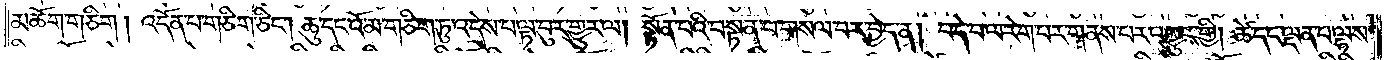མཆོག་གཅིག ། འདོན་པ་གཅིག་ཅིང༌། ཆུ་དང་འོ་མ་གཅིག་ཏུ་འདྲེས་པ་ལྟ་བུར་གྱུར་ལ། སྟོན་པའི་བསྟན་པ་གསལ་བར་བྱེད་ན། བདེ་བ་ལ་རེག་པར་གནས་པར་འགྱུར་གྱི། ཚེ་དང་ལྡན་པ་ལྷས་
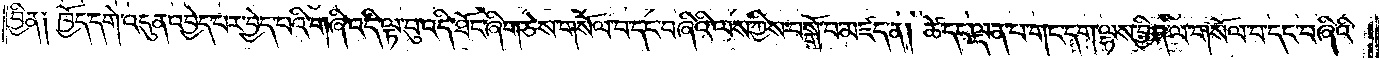བྱིན༑ ཁྱོད་དགེ་འདུན་འབྱེད་པར་བྱེད་པའི་གཞི་འདི་ལྟ་བུ་འདི་ཐོང་ཞིག་ཅེས་གསོལ་བ་དང་བཞིའི་ལས་ཀྱིས་བསྒོ་བ་མཛད་ན། ཚེ་དང་ལྡན་པ་གང་དག་ལྷས་བྱིན་ལ་གསོལ་བ་དང་བཞིའི་
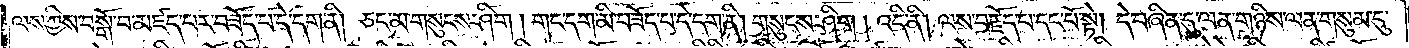ལས་ཀྱིས་བསྒོ་བ་མཛད་པར་བཟོད་པ་དེ་དག་ནི། ཅང་མ་གསུངས་ཤིག ། གང་དག་མི་བཟོད་པ་དེ་དག་ནི། གསུངས་ཤིག ། འདི་ནི། ལས་བརྗོད་པ་དང་པོ་སྟེ། དེ་བཞིན་དུ་ལན་གཉིས་ལན་གསུམ་དུ་
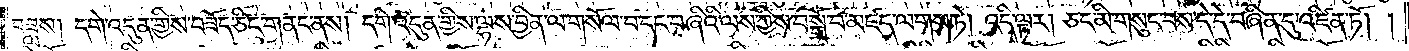བཟླས། དགེ་འདུན་གྱིས་བཟོད་ཅིང་གནང་ནས། དགེ་འདུན་གྱིས་ལྷས་བྱིན་ལ་གསོལ་བ་དང་བཞིའི་ལས་ཀྱིས་བསྒོ་བ་མཛད་ལགས་ཏེ། འདི་ལྟར། ཅང་མི་གསུང་བས་དེ་དེ་བཞིན་དུ་འཛིན་ཏོ། །
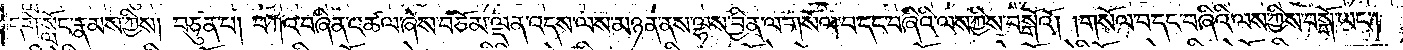དགེ་སློང་རྣམས་ཀྱིས། བཙུན་པ། བཀའ་བཞིན་འཚལ་ཞེས་བཅོམ་ལྡན་འདས་ལས་མཉན་ནས་ལྷས་བྱིན་ལ་གསོལ་བ་དང་བཞིའི་ལས་ཀྱིས་བསྒོའོ། །གསོལ་བ་དང་བཞིའི་ལས་ཀྱིས་བསྒོ་ཡང༌།
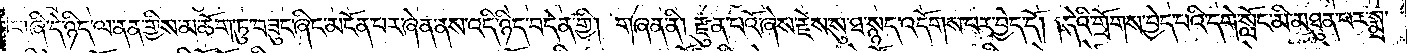གཞི་དེ་ཉིད་ལ་ནན་གྱིས་མཆོག་ཏུ་བཟུང་ཞིང་མངོན་པར་ཞེན་ནས་འདི་ཉིད་བདེན་གྱི། གཞན་ནི། རྫུན་པའོ་ཞེས་རྗེས་སུ་ཐ་སྙད་འདོགས་པར་བྱེད་དོ། །དེའི་གྲོགས་བྱེད་པའི་དགེ་སློང་མི་མཐུན་པར་སྨྲ་
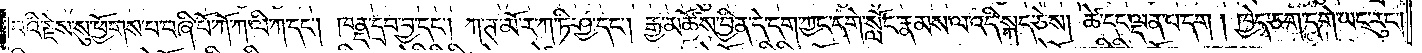བའི་རྗེས་སུ་ཕྱོགས་པ་བཞི་པོ་ཀོ་ཀ་ལི་ཀ་དང༌། ཁནྡ་དྲབ་བྱ་དང༌། ཀ་ཊ་མོ་ར་ཀ་ཏི་ཤྱ་དང༌། རྒྱ་མཚོས་བྱིན་དེ་དག་ཀྱང་དགེ་སློང་རྣམས་ལ་འདི་སྐད་ཅེས། ཚེ་དང་ལྡན་པ་དག ། ཁྱེད་ཅག་དགེ་ཡང་རུང༌།
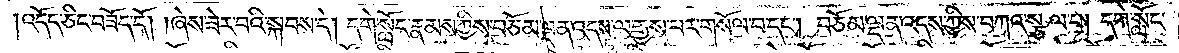འདོད་ཅིང་བཟོད་དོ། །ཞེས་ཟེར་བའི་སྐབས་དེ། དགེ་སློང་རྣམས་ཀྱིས་བཅོམ་ལྡན་འདས་ལ་རྒྱས་པར་གསོལ་བ་དང༌། བཅོམ་ལྡན་འདས་ཀྱིས་བཀའ་སྩལ་པ། དགེ་སློང་
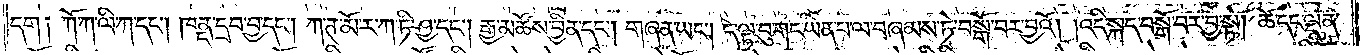དག༏ ཀོ་ཀ་ལི་ཀ་དང༌། ཁནྡ་དྲབ་བྱ་དང༌། ཀ་ཊ་མོ་ར་ཀ་ཏི་ཤྱ་དང༌། རྒྱ་མཚོས་བྱིན་དང༌། གཞན་ཡང༌། དེ་ལྟ་བུ་གང་ཡིན་པ་ལ་བཞམས་ཏེ་བསྒོ་བར་བྱའོ། །འདི་སྐད་བསྒོ་བར་བྱ་སྟེ། ཚེ་དང་ལྡན་
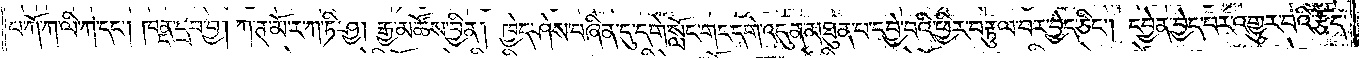པ་ཀོ་ཀ་ལི་ཀ་དང༌། ཁནྡ་དྲབ་བྱ། ཀ་ཊ་མོ་ར་ཀ་ཏི་ཤྱ། རྒྱ་མཚོས་བྱིན། ཁྱེད་ཤེས་བཞིན་དུ་དགེ་སློང་གང་དགེ་འདུན་མཐུན་པ་དབྱེ་བའི་ཕྱིར་བརྟུལ་བར་བྱེད་ཅིང༌། དབྱེན་བྱེད་པར་འགྱུར་བའི་རྩོད་
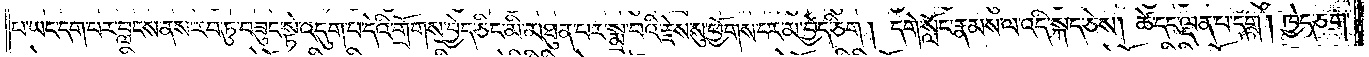པ་ཡང་དག་པར་བླངས་ནས་རབ་ཏུ་བཟུང་སྟེ་འདུག་པ་དེའི་གྲོགས་བྱེད་ཅིང་མི་མཐུན་པར་སྨྲ་བའི་རྗེས་སུ་ཕྱོགས་པར་མ་བྱེད་ཅིག། དགེ་སློང་རྣམས་ལ་འདི་སྐད་ཅེས། ཚེ་དང་ལྡན་པ་དང༌། ཁྱེད་ཅག་
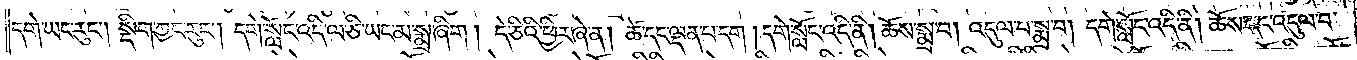དགེ་ཡང་རུང༌། སྡིག་ཀྱང་རུང༌། དགེ་སློང་འདི་ལ་ཅི་ཡང་མ་སྨྲ་ཞིག །དེ་ཅིའི་ཕྱིར་ཞེ་ན། ཚེ་དང་ལྡན་པ་དག །དགེ་སློང་འདི་ནི། ཆོས་སྨྲ་བ། འདུལ་བ་སྨྲ་བ། དགེ་སློང་འདི་ནི། ཆོས་དང་འདུལ་བ་
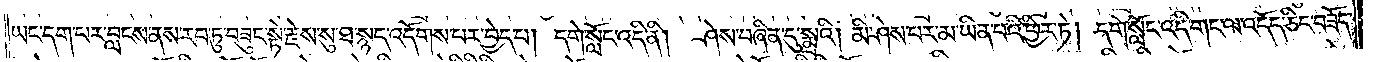ཡང་དག་པར་བླངས་ནས་རབ་ཏུ་བཟུང་སྟེ་རྗེས་སུ་ཐ་སྙད་འདོགས་པར་བྱེད་པ། དགེ་སློང་འདི་ནི། ཤེས་བཞིན་དུ་སྨྲའི། མི་ཤེས་པར་མ་ཡིན་པའི་ཕྱིར་ཏེ། དགེ་སློང་འདི་གང་ལ་འདོད་ཅིང་བཟོད་
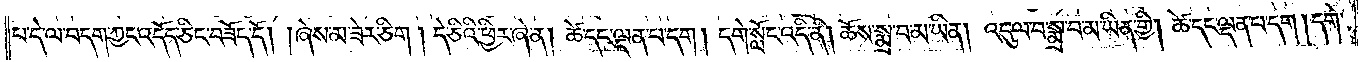པ་དེ་ལ་བདག་ཀྱང་འདོད་ཅིང་བཟོད་དོ། །ཞེས་མ་ཟེར་ཅིག །དེ་ཅིའི་ཕྱིར་ཞེ་ན། ཚེ་དང་ལྡན་པ་དག །དགེ་སློང་འདི་ནི། ཆོས་སྨྲ་བ་མ་ཡིན། འདུལ་བ་སྨྲ་བ་མ་ཡིན་གྱི། ཚེ་དང་ལྡན་པ་དག། དགེ་
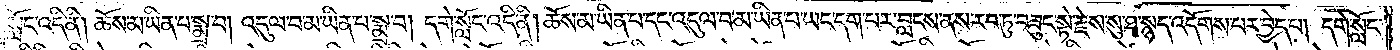སློང་འདི་ནི། ཆོས་མ་ཡིན་པ་སྨྲ་བ། འདུལ་བ་མ་ཡིན་པ་སྨྲ་བ། དགེ་སློང་འདི་ནི། ཆོས་མ་ཡིན་པ་དང་འདུལ་བ་མ་ཡིན་པ་ཡང་དག་པར་བླངས་ནས་རབ་ཏུ་བཟུང་སྟེ་རྗེས་སུ་ཐ་སྙད་འདོགས་པར་བྱེད་པ། དགེ་སློང་
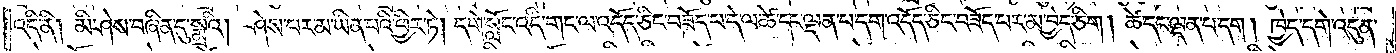འདི་ནི། མི་ཤེས་བཞིན་དུ་སྨྲའི། ཤེས་པར་མ་ཡིན་པའི་ཕྱིར་ཏེ། དགེ་སློང་འདི་གང་ལ་འདོད་ཅིང་བཟོད་པ་དེ་ལ་ཚེ་དང་ལྡན་པ་དག་འདོད་ཅིང་བཟོད་པར་མ་བྱེད་ཅིག། ཚེ་དང་ལྡན་པ་དག། ཁྱེད་དགེ་འདུན་
